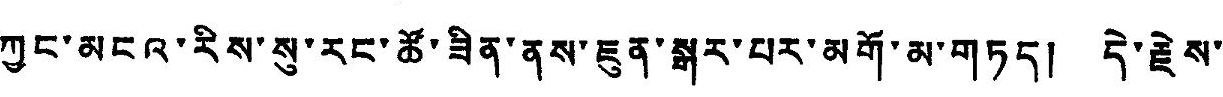ཀྱང་མངའ་རིས་སུ་རང་ཚོ་ཟིན་ནས་ཇུན་སྒར་པར་མགོ་མ་གཏད། དེ་རྗེས་
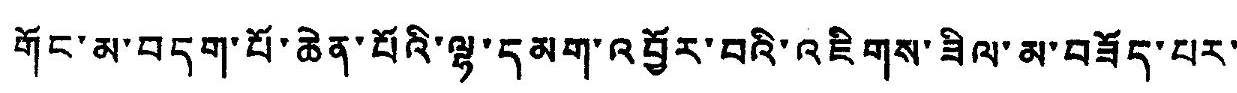གོང་མ་བདག་པོ་ཆེན་པོའི་ལྷ་དམག་འབྱོར་བའི་འཇིགས་ཟིལ་མ་བཟོད་པར་
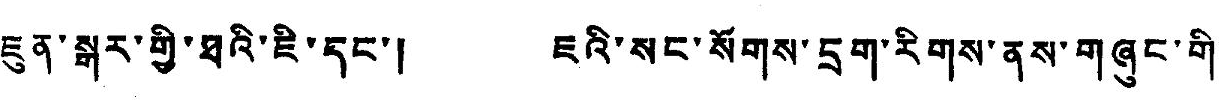ཇུན་སྒར་གྱི་ཐའི་ཇི་དང་། ཇའི་སང་སོགས་དྲག་རིགས་ནས་གཞུང་གི་
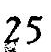25
